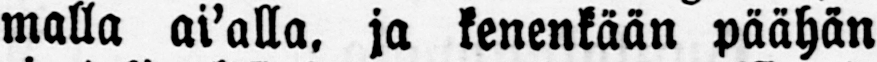malla ak'alla. ja kenenkään päähän
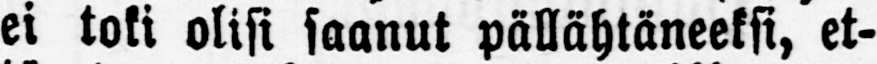ei toki olisi saanut pöllähtäneeksi, et-
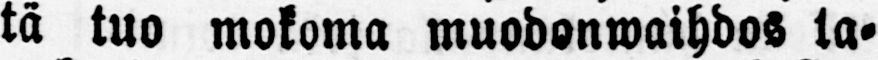tä tuo mokoma muodonwaihdos ta-
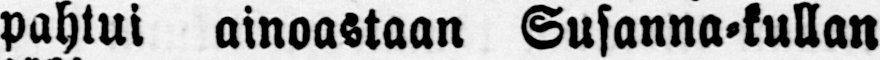pahtui ainoastaan Susanna-kullan
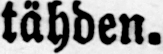tähden.
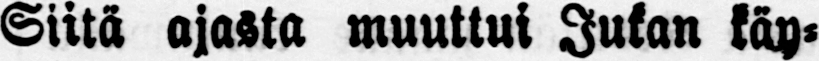Siitä ajasta muuttui Jukan käy-
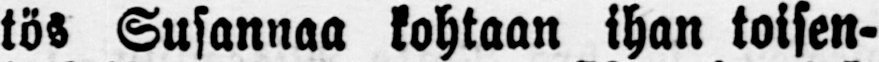tös Susannaa kohtaan ihan toisen-
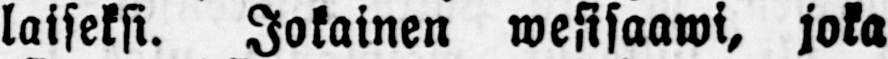laiseksi. Jokainen wesisaawi, joka
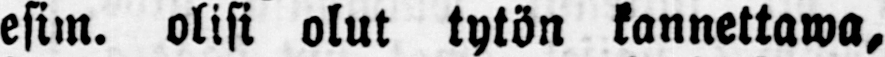esim. olisi olut tytön kannettawa,
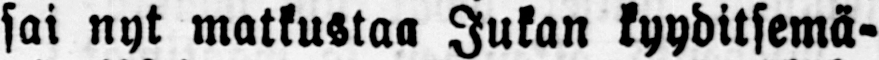sai nyt matkustaa Jukan kyyditsemä-
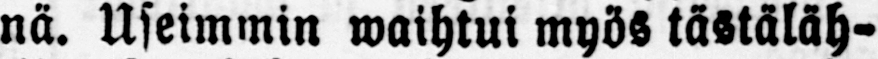nä. Useimmin waihtui myös tästäläh-
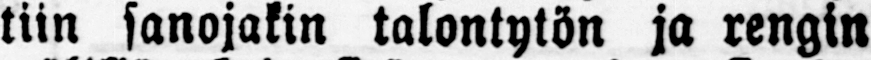tiin sanojakin talontytön ja rengin
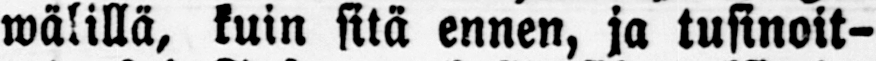wälillä, kuin sitä ennen, ja tusinoit-
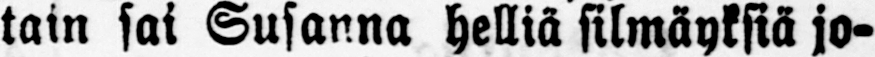tain sai Susanna helliä silmäyksiä jo-
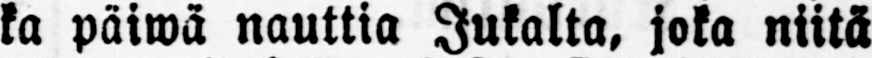ka päiwä nauttia Jukalta, joka niitä
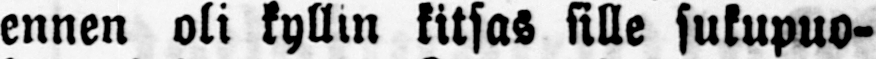ennen oli kyllin kitsas sille sukupuo-
